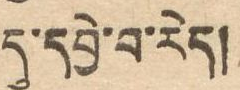དུ་དབྱེ་བ་རེད།
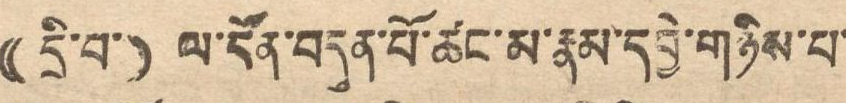(( དྲི་བ་)) ལ་དོན་བདུན་པོ་ཚང་མ་རྣམ་དབྱེ་གཉིས་པ་
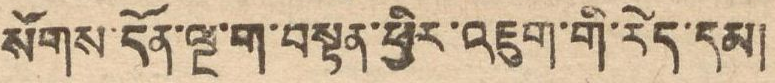སོགས་དོན་ལྔ་ག་བསྟན་ཕྱིར་འཇུག་གི་རེད་དམ།
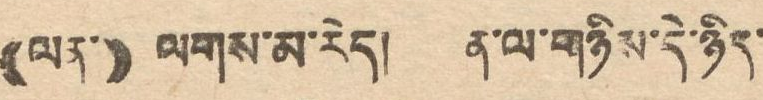((ལན་)) ལགས་མ་རེད། ན་ལ་གཉིས་དེ་ཉིད་
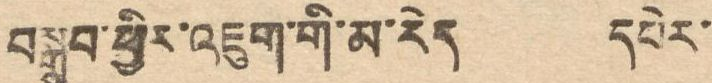བསྒྲུབ་ཕྱིར་འཇུག་གི་མ་རེད དཔེར་
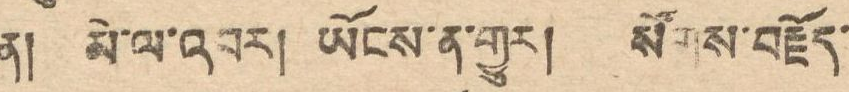ན། མེ་ལ་འབར། ཡོངས་ན་གྱུར། སོགས་བརྗོད་
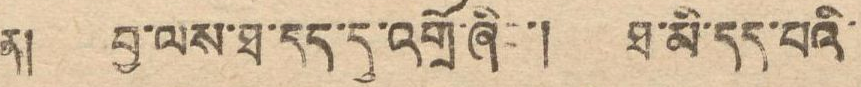ན། བྱ་ལས་ཐ་དད་དུ་འགྲོ་ཞིང་། ཐ་མི་དད་པའི་
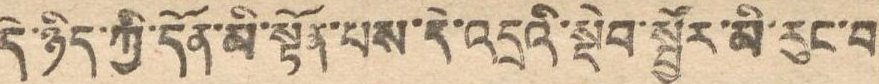དེ་ཉིད་ཀྱི་དོན་མི་སྟོན་པས་དེ་འདྲའི་སྡེབ་སྦྱོར་མི་རུང་བ
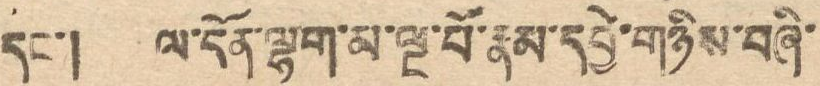དང་། ལ་དོན་ལྷག་མ་ལྔ་པོ་རྣམ་དབྱེ་གཉིས་བཞི་
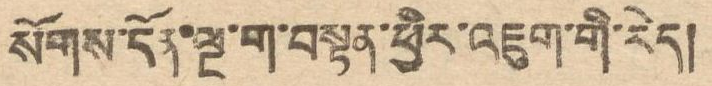སོགས་དོན་ལྔ་ག་བསྟན་ཕྱིར་འཇུག་གི་རེད།
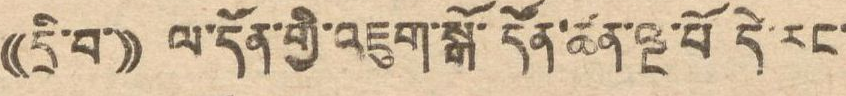((དྲི་བ་)) ལ་དོན་གྱི་འཇུག་སྒོ་དོན་ཚན་ལྔ་པོ དེ་རང་
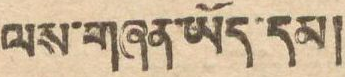ལས་གཞན་ཡོད་དམ།
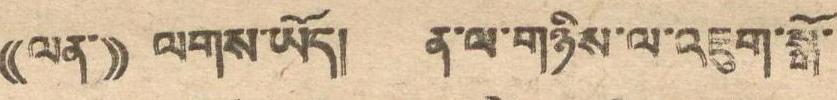((ལན་)) ལགས་ཡོད། ན་ལ་གཉིས་ལ་འཇུག་སྒོ་
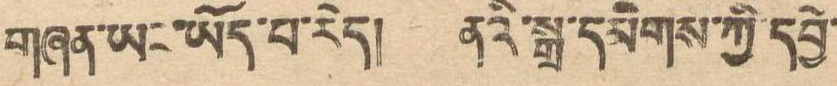གཞན་ཡང་ཡོད་པ་རེད། ནའི་སྒྲ་དམིགས་ཀྱི་དབྱེ་
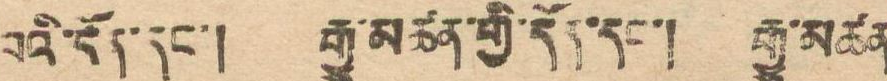བའི་དོན་དང་། རྒྱུ་མཚན་གྱི་དོན་དང་། རྒྱུ་མཚན
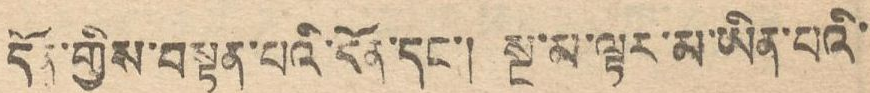དོན་གྱིས་བསྟན་པའི་དོན་དང་། སྔ་མ་ལྟར་མ་ཡིན་པའི་
